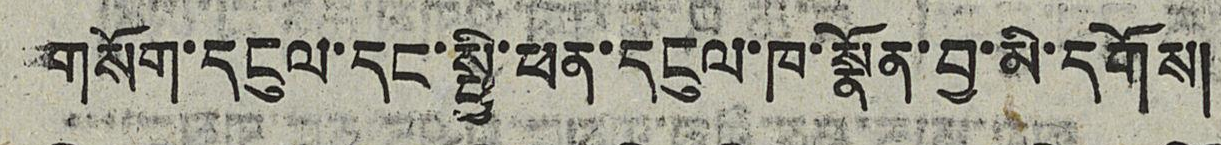གསོག་དངུལ་དང་སྤྱི་ཕན་དངུལ་ཁ་སྣོན་བྱ་མི་དགོས།
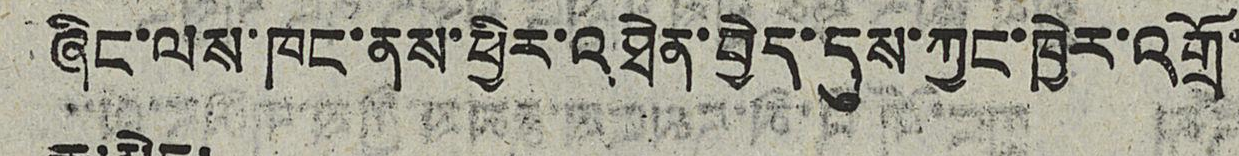ཞིང་ལས་ཁང་ནས་ཕྱིར་འཐེན་བྱེད་དུས་ཀྱང་ཁྱེར་འགྲོ་
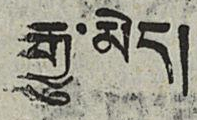རྒྱུ་མེད།
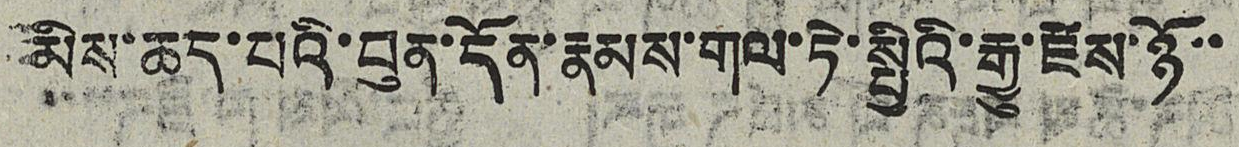མིས་ཆད་པའི་བུན་དོན་རྣམས་གལ་ཏེ་སྤྱིའི་རྒྱུ་ཛེས་ཉོ་
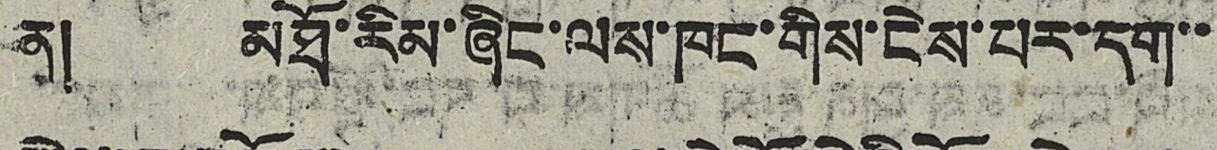ན། མཐོ་རིམ་ཞིང་ལས་ཁང་གིས་ངེས་པར་དག་་
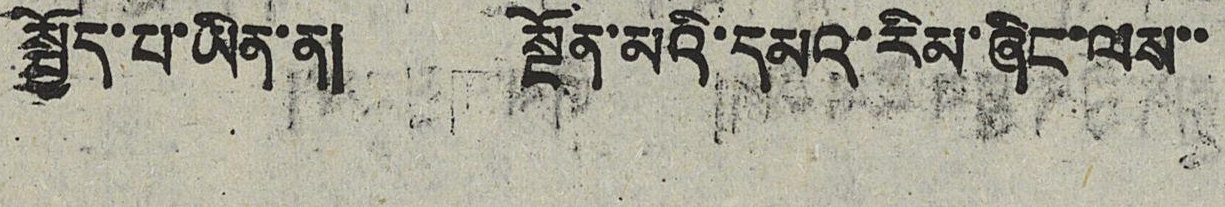སྤྱོད་པ་ཡིན་ན། སྔོན་མའི་དམའ་རིམ་ཞིང་ལས་་
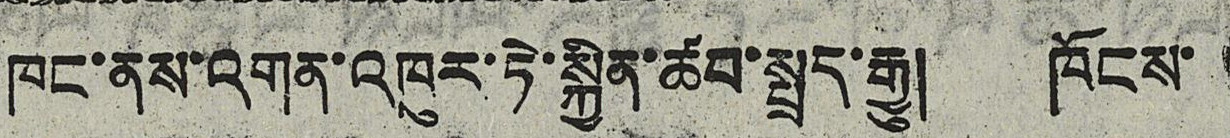ཁང་ནས་འགན་འབུར་ཏེ་སྐྱིན་ཚབ་སྤྲད་རྒྱུ། ཁོངས་
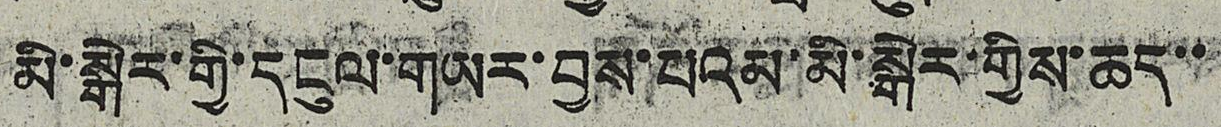མི་སྒེར་གྱི་དངུལ་གཡར་བྱས་པའམ་མི་སྒེར་གྱིས་ཚད་་
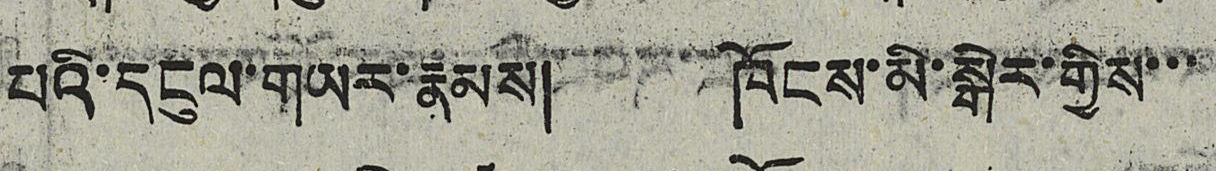པའི་དངུལ་གཡར་རྣམས། ཁོངས་མི་སྒེར་གྱིས་་་
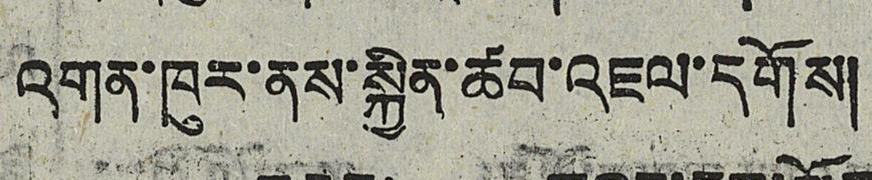འགན་ཁུར་ནས་སྐྱིན་ཚབ་འཇལ་དགོས།
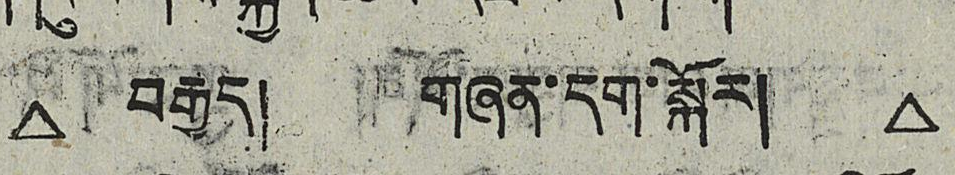△ བརྒྱད། གཞན་དག་སྐོར། △
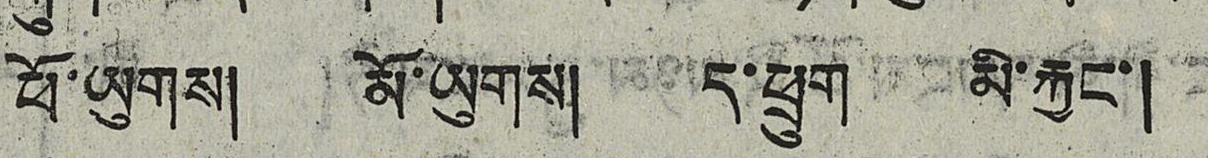ཕོ་ཡུགས། མོ་ཡུགས། ད་ཕྲུག མི་རྐྱང་།
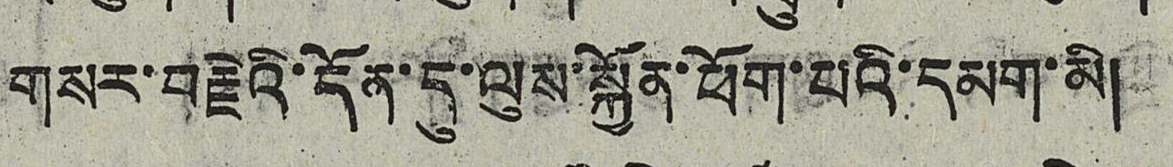གསར་བརྗེའི་དོན་དུ་ལུས་སྐྱོན་ཕོག་པའི་དམག་མི།
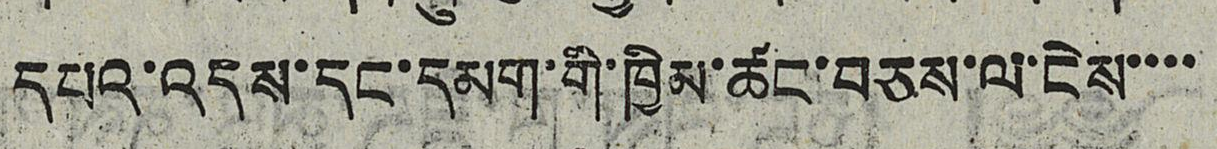དཔའ་འདས་དང་དམག་གི་ཁྱིམ་ཚང་བཅས་ལ་ངེས་་་་
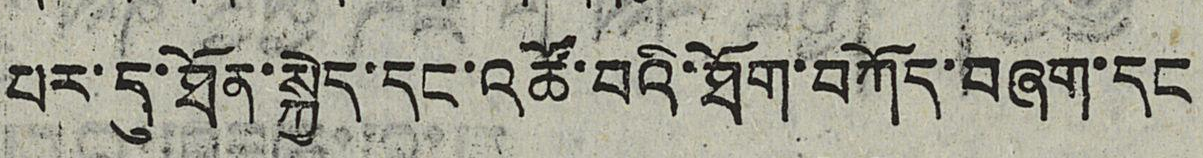པར་དུ་ཐོན་སྐྱེད་དང་འཚོ་བའི་ཐོག་བཀོད་བཞག་དང
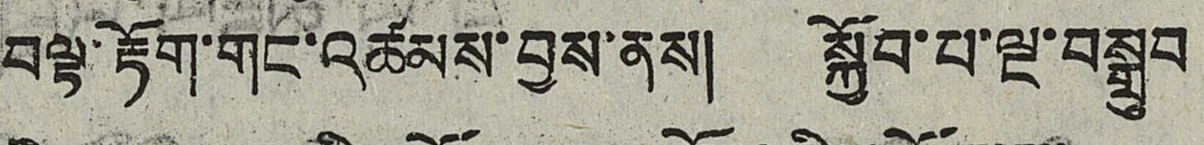བལྟ་རྟོག་གང་འཚམས་བྱས་ནས། སྐྱོབ་པ་ལྔ་བསྒྲུབ
